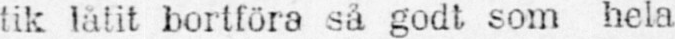tik låtit bortföra sä godt som hela
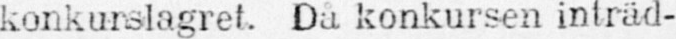konkurslagret. Då konkursen inträd-
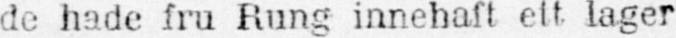de hade fru Rung innehaft ett lager
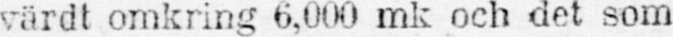värdt omkring 6,000 mk och det som
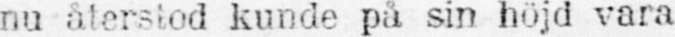nu återstod kunde på sin höjd vara
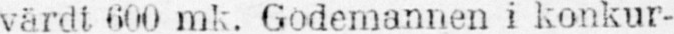värdi 600 mk. Godemannen i konkur-
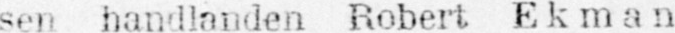sen handlanden Robert Ekman
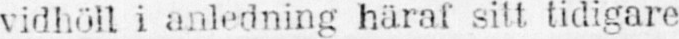vidhöll i anledning häraf sitt tidigare
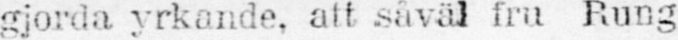gjorda yrkande, att såväl fru Rung
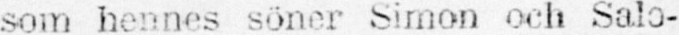som hennes söner Simon och Salo-
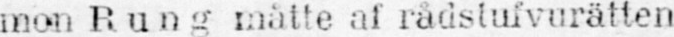mon Rung måtte af rådstufvurätten
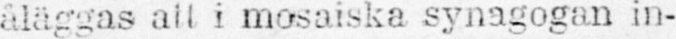åläggas att i mosaiska synagogan in-
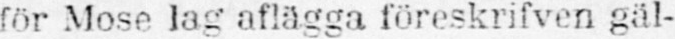för Mose lag aflägga föreskrifven gäl-
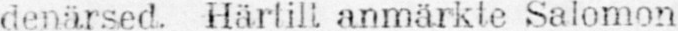denärsed. Härtill anmärkte Salomon
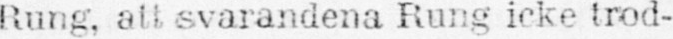Rung, att svarandena Rung icke trod-
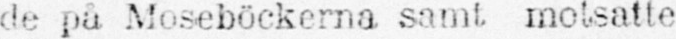de på Moseböckerna samt motsatte
